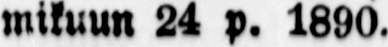mikuun 24 p. 1890.
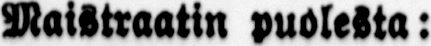Maistraatin puolesta:
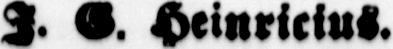I. G. Hrinricius.
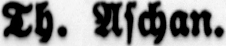Th. Aschan.
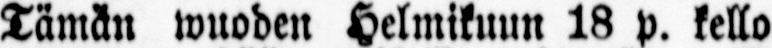Tämän wuoden Helmikuun 18 p. kello
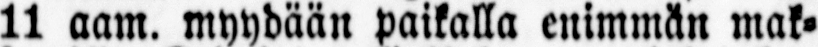11 aam. myydään paikalla enimmän mak-
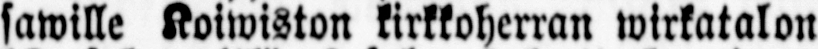sawille Koiwiston kirkkoherran wirkatalon
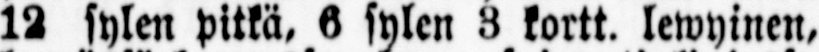12 sylen pitkä. 6 sylen 3 kortt. lewyinen,
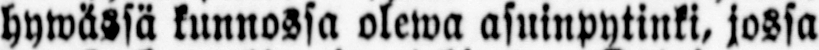hywässä kunnossa olewa asuinpytinki, jossa
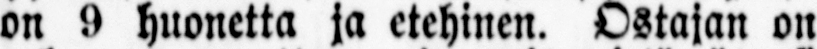on 9 huonetta ja etehinen. Ostajan on
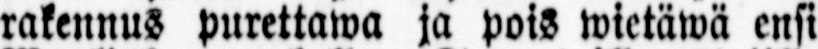rakennus purettawa ja pois wietäwä ensi
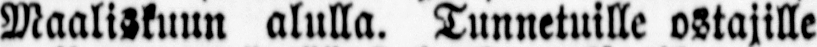Maaliskuun alulla. Tunnetuille ostajille
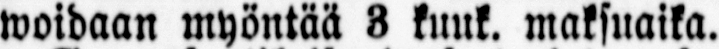woidaan myöntää 3 kuuk. maksuaika.
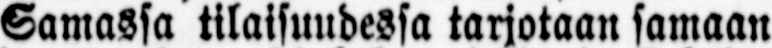Samassa tilaisuudessa tarjotaan samaan
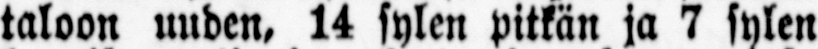taloon uuden, 14 sylen pitkän ja 7 sylen
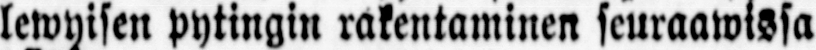lewyisen pytingin rakentaminen seuraawissa
